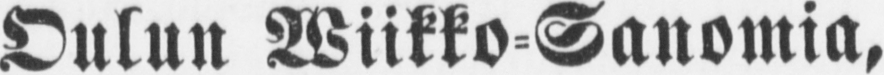Oulun Wiikko Sanomia,
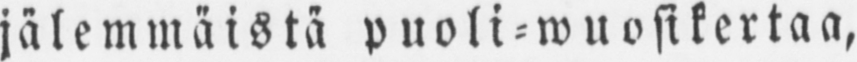jälemmäistä puoli - wuosikertaa,
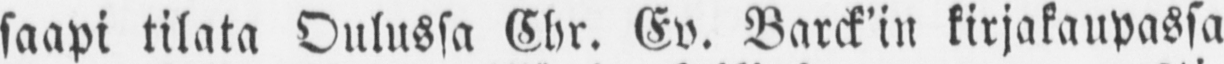saapi tilata Oulussa Chr. Ev. Barck'in kirjakaupassa
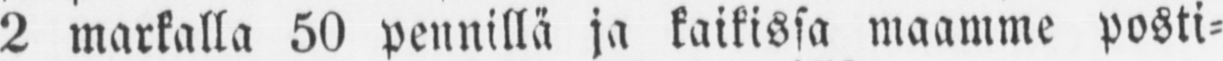2 markalla 50 pennillä ja kaikissa maamme posti-
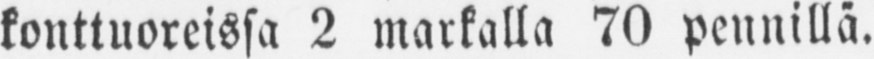konttuoreissa 2 markalla 70 pennillä.
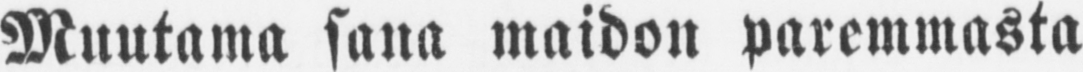Muutama sana maidon paremmasta
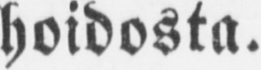hoidosta.
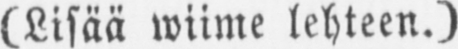(Lisää wiime lehteen.)
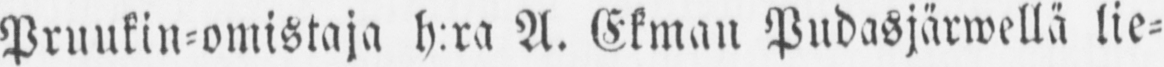Pruukin-omistaja h:ra A. Ekman Pudasjärwellä lie-
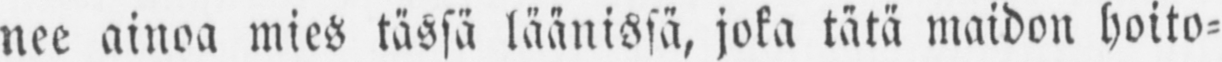nee ainoa mies tässä läänissä, joka tätä maidon hoito-
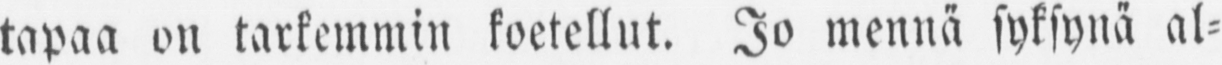tapaa on tarkemmin koetellut. Jo mennä syksynä al-
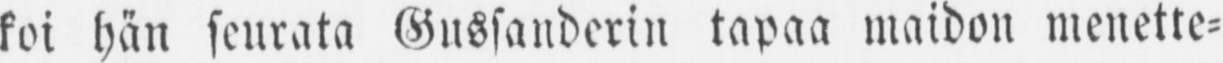koi hän seurata Gussanderin tapaa maidon menette-
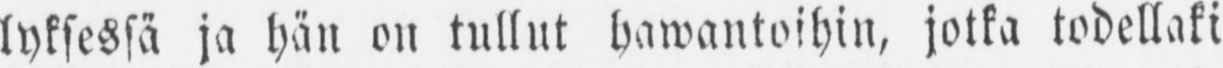lyksessä ja hän on tullut hawantoihin, jotka todellaki
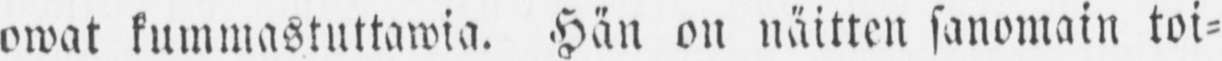owat kummastuttawia. Hän on näitten sanomain toi-
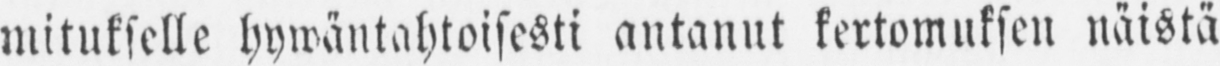mitukselle hywäntahtoisesti antanut kertomuksen näistä
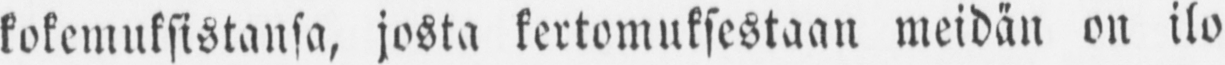kokemuksistansa, josta kertomuksestaan meidän on ilo
